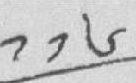༡༡༦
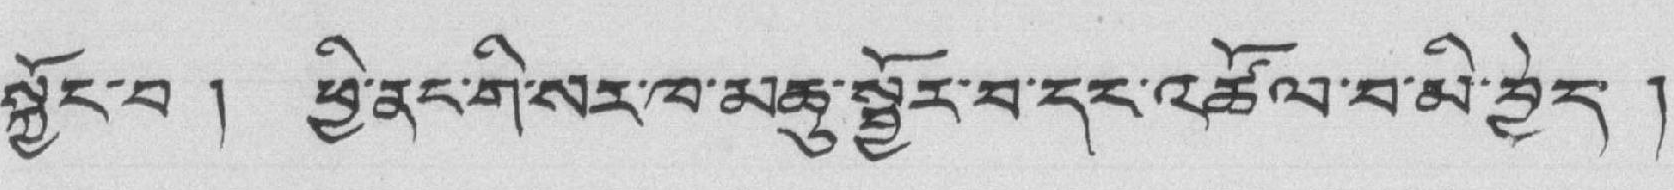སྐྱོང་བ ། ཕྱི་ནང་གི་སར་ཁ་མཆུ་སྦྱོར་བ་དང་འཚོལ་བ་མི་ཕྱེད་ །
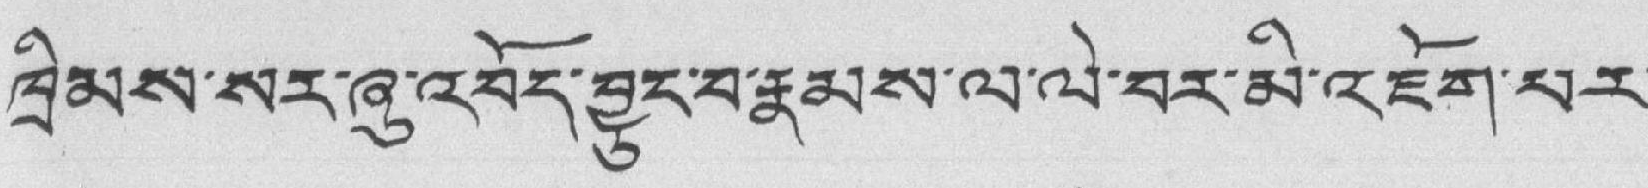ཁྲིམས་སར་ཞུ་འབོད་བྱུང་བ་རྣམས་ལ་ལེ་བར་མི་འཇོག་པར་
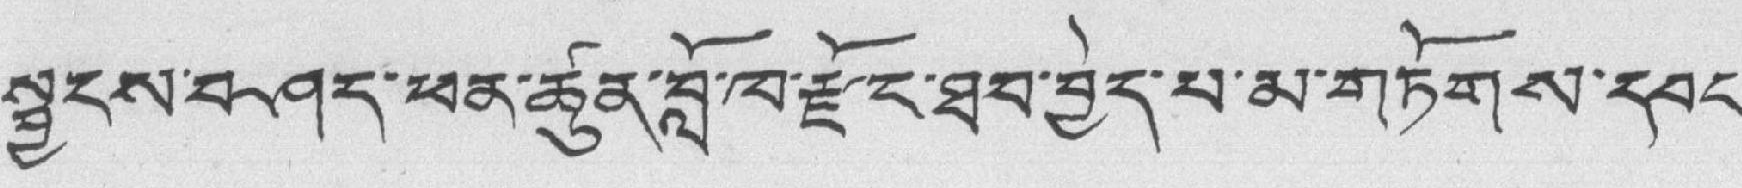སྦྱངས་བཤད་ཕན་ཚུན་བློ་ཁ་རྫོང་ཐབ་བྱེད་པ་མ་གཏོགས་དབང་
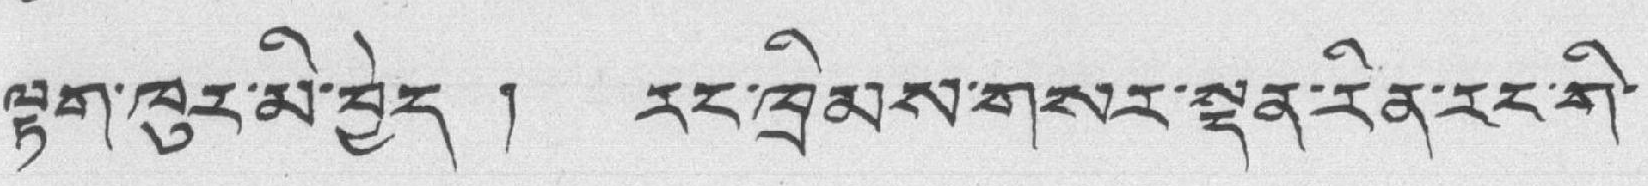ལྟག་ཁུར་མི་བྱེད ། རང་ཁྲིམས་གསར་ལྡན་རིན་རང་གི་
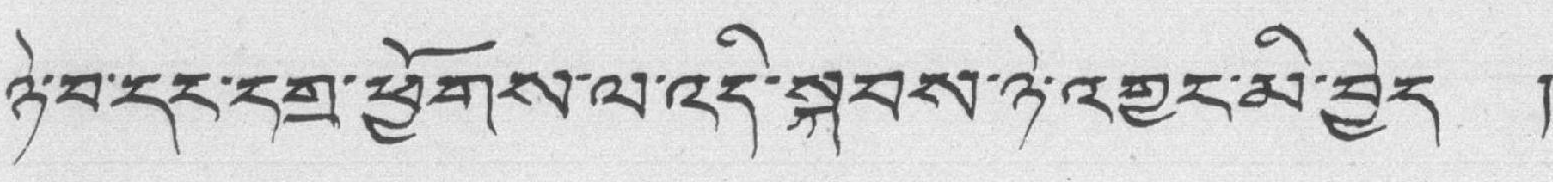ཉེ་བ་དང་དགྲ་ཕྱོགས་ལ་འདི་སྐབས་ཉེ་འགྱང་མི་བྱེད །
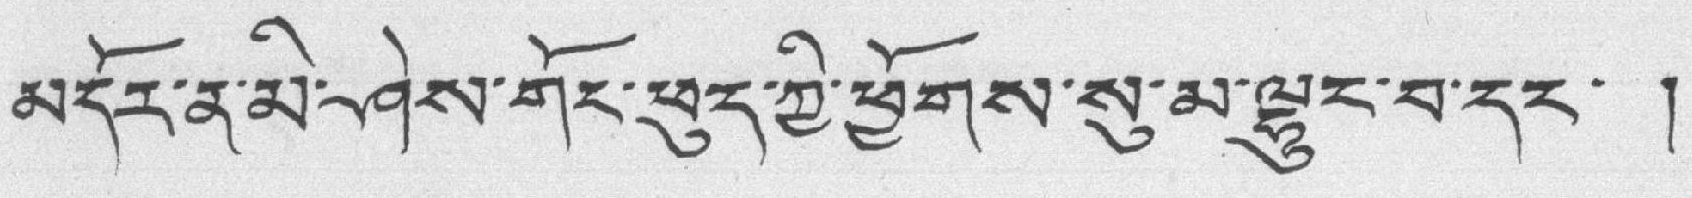མདོར་ན་མི་ཤེས་གོང་ཕུད་ཀྱི་ཕྱོགས་སུ་མ་ལྷུང་བ་དང་ །
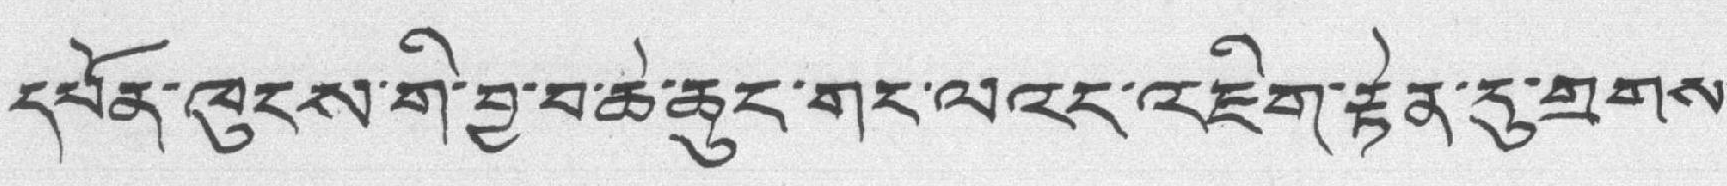དཔོན་ཁུངས་གི་བྱ་བ་ཆེ་ཆུང་གང་ལའང་འཇིག་རྟེན་དུ་གྲགས་
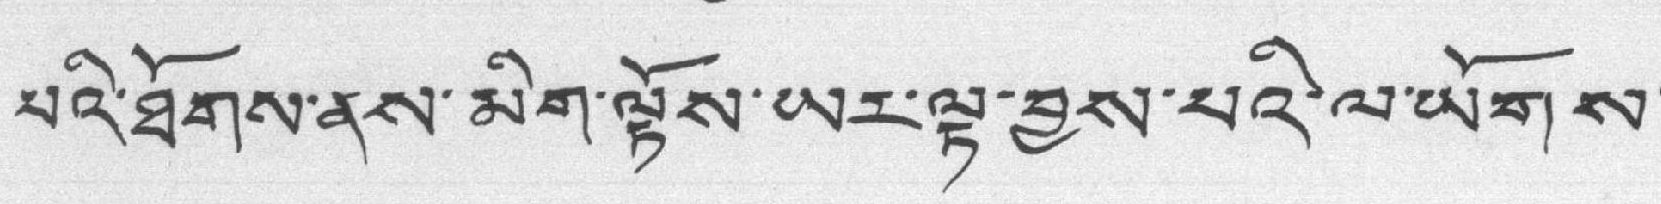པའི་ཐོགས་ནས་མིག་ལྟོས་ཡར་ལྟ་བྱས་པའི་ལ་ཡོགས་
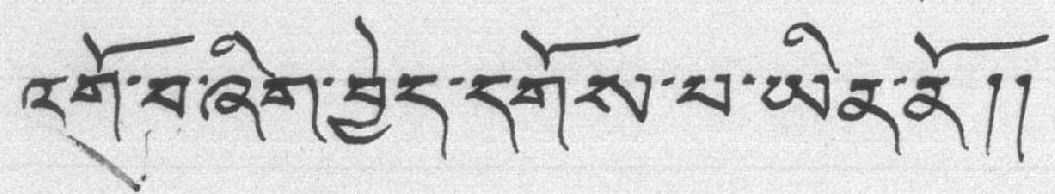འགྲ་བ་ཞིག་བྱེད་དགོས་པ་ཡིན་ནོ།།
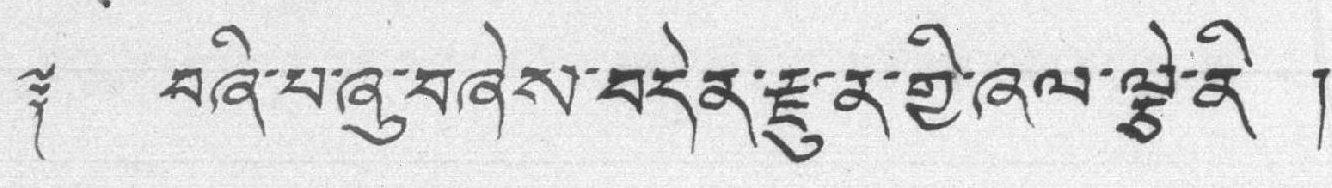༈ བཞི་པ་ཞུ་བཞེས་བདེན་རྫུན་གྱི་ཞལ་ལྕེ་ནི །
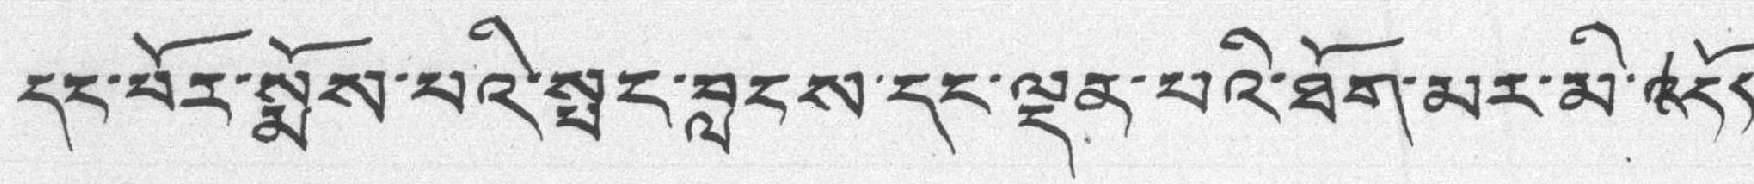དར་པོར་སྨོས་པའི་སྤང་བླངས་དང་ལྡན་པའི་ཐོག་མར་མི་འདོད་
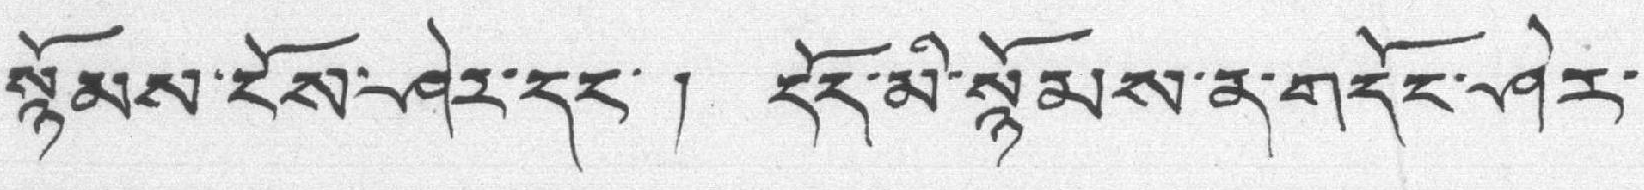སྙོམས་ངོས་ཤེར་དང་། དོད་མི་སྙོམས་ན་གདོང་ཤེར་
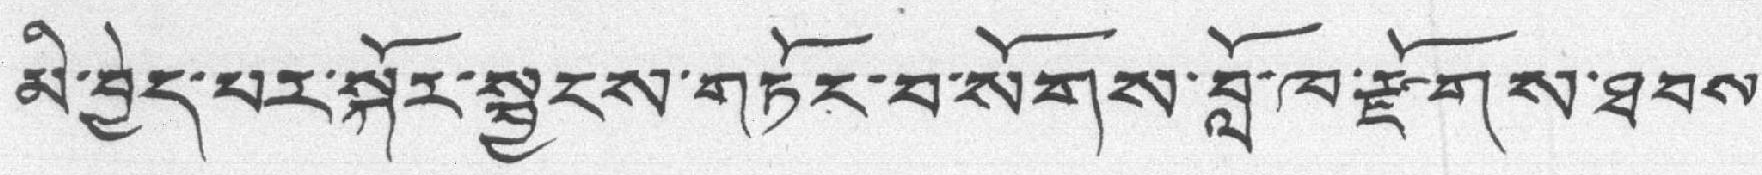མི་བྱེད་པར་སྐོར་སྦྱངས་གཏོང་བ་སོགས་བློ་ཁ་རྫོགས་ཐབས་
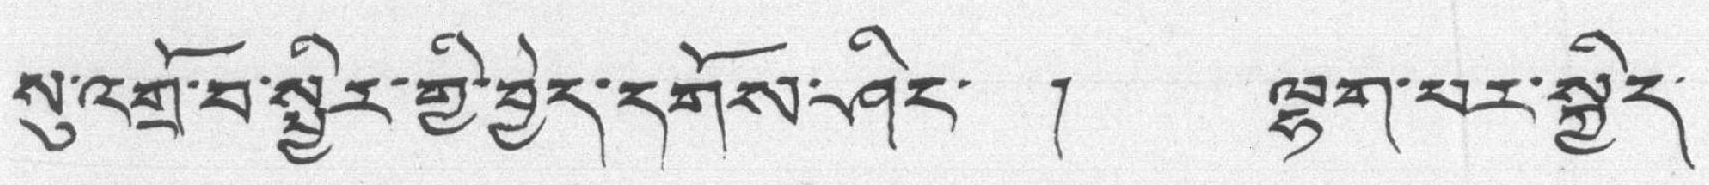སུ་འགྲོ་བ་སྤྱིར་གྱི་བྱེད་དགོས་ཤིང་ ། ལྷག་པར་སྐྱིད་
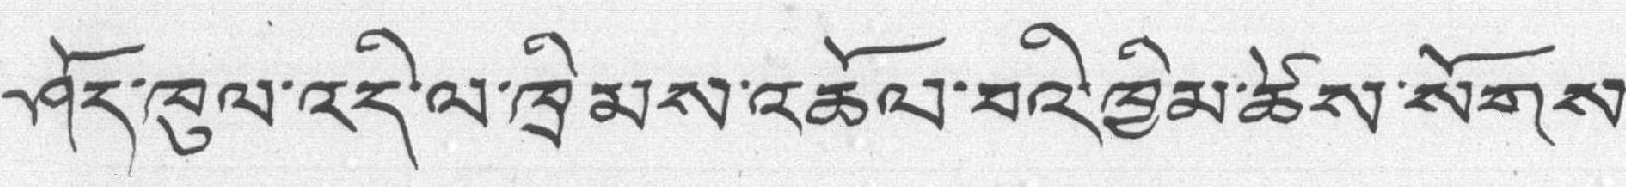ཤོད་ཁུལ་འདི་ལ་ཁྲིམས་འཆོལ་བའི་ཁྱིམ་ཚེས་སོགས་
